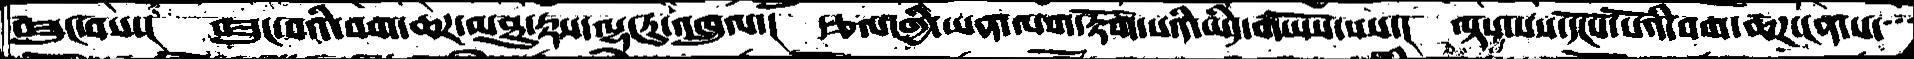བཟུང་བས་།  བཟུང་བའི་བག་ཆཌ་མཐུ་རྟས་ལྷ་རུ་འཁྲུལ་།  རྩལ་གྱི་ཡན་ལག་རྟོག་པའི་ཡིད་གཡོས་པས་།  ལྟས་པས་དངོས་པོའི་བག་ཆཌ་ངན་པ
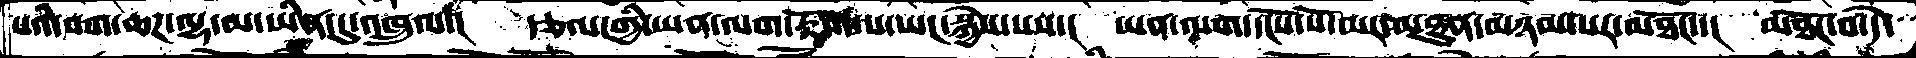པའི་བག་ཆཌ་ལྷ་མ་ཡིན་དུ་འཁྲུལ་།  རྩལ་གྱི་ཡན་ལག་རྟོག་པ་ཡང་སྐྱེས་པས་།  ཡན་ལག་དངོས་པོ་མར་མཐུན་མཉམ་པར་མཐོང་་།  མཐོང་བ་དེ་
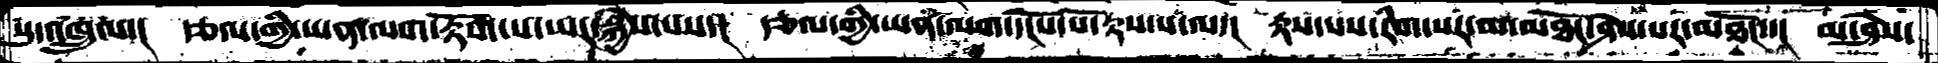སུ་འཁྲུལ་།  རྩལ་གྱི་ཡན་ལག་རྟོག་པ་ཡང་སྐྱེས་པས་།  རྩལ་གྱི་ཡན་ལག་དངོས་པོ་རྟས་པ་ལ་།  རྟས་པས་རིག་པར་མ་མཐོོང་ཤེས་པར་མཐོང་་།  མ་ཤེས་
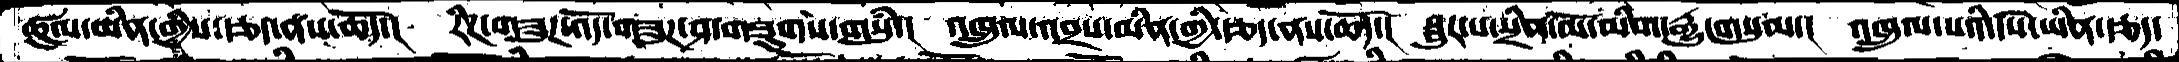ཚུལ་མིན་གྱིས་རྩད་ནས་ཆོད་། རིཌ་གཟུཌ་འོད་གཟུཌ་ཤ་གཟུགས་གསུཾ་།  འཁྲུལ་འབྲས་མིན་གྱི་རྩད་ནས་ཆོད་།  སྦུར་པ་སྲིན་མོ་མིག་རྒྱུ་གསུམ་།  འཁྲུལ་པའི་དཔེ་ཡིན་རྩད་
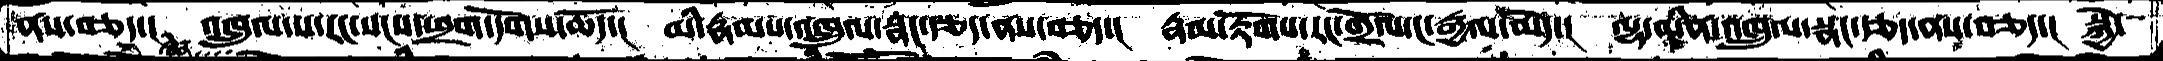ནས་བཅད་།  འཁྲུལ་པ་རང་སངས་ཕྲག་དོགས་ཆོད་།  མི་རྣམས་འཁྲུལ་སྣང་རྩད་ནས་བཅད་།  རྣམ་རྟོགས་རང་གྲོལ་ང་རྒྱལ་མེད་།  ལྷ་མིན་འཁྲུལ་སྣང་རྩད་ནས་བཅད་།  སྐྱེ་
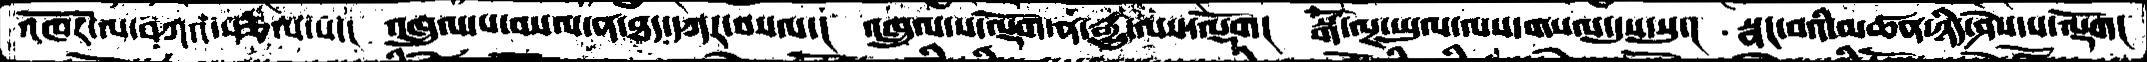འཁོར་ལ་བཀའ་སྩལ་པ་།  འཁྲུལ་པ་བསལ་ན་ཐད་དཀར་བསལ་།  འཁྲུལ་པ་ལྡོག་ན་རྒྱུ་ལས་ལྡོག།  སྒོ་ལྔ་ཡུལ་ལས་གསལ་དུས་སུ་།  སྣང་བའི་མཚན་ཉིད་ཤེས་པ་ལྡོག།
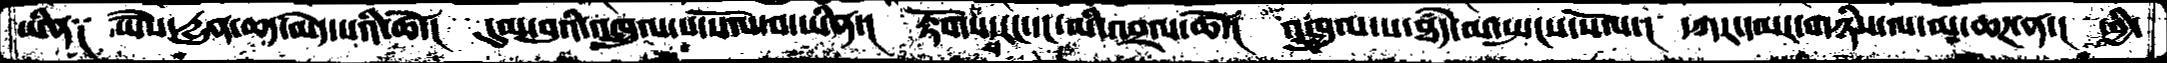ཡིན༑  ཡཻས་རྒྱུན་ཆད་མེད་པའི་ཚེ་།  དུམ་བུའི་འཁྲུལ་པ་སོལ་བ་ཡིན་།  རྟོགས་པ་རང་དང་མི་འབྲལ་ཆེ་།  འཁྲུལ་པ་ཐཾད་མ་སྤངས་སེལ་། དཀར་དམར་གཉིས་ལ་མ་ཆཌ་ན་།  ཕྱི་
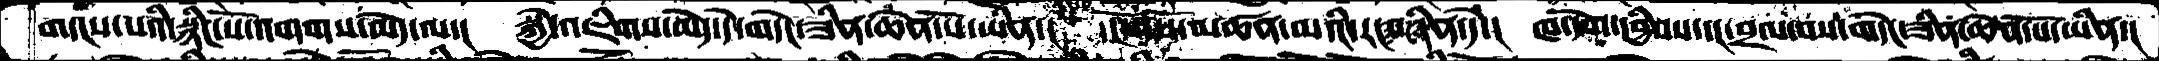གདངས་པའི་སྣིང་པོ་འགགས་མེད་ལ་།  སྐྱེ་འཇིགས་མེད་དེ་གདེང་ཟིན་ཆེན་པོ་ཡིན་།  དངོས་པོ་མཚན་མའི་རང་བཞིན་དེ་།  ཁ་དོག་དབྱིབས་དང་བྲལ་བས་གདེང་ཟིན་ཆེན་པོ་ཡིན་།
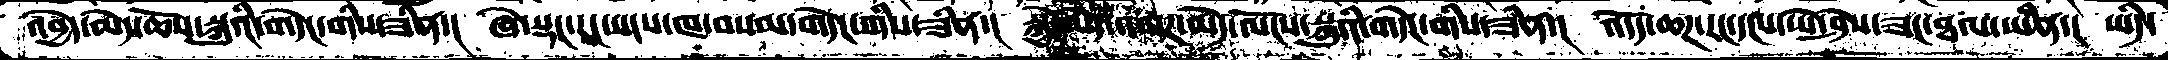འབྱེད་མེད་ཆོས་སྐུའི་གདེང་གིས་ཟིན་། ཞེ་སྡང་རང་སངས་ཁ་བསམ་གདེང་གིས་ཟིན་།  སྐྱེ་མེད་འགཌ་མེད་ལོངས་སྐུའི་གདེང་གིས་ཟིན་།  འདོད་ཆཌ་རང་དངས་ཡེ་ཤེས་ཟང་ཐལ་ཡིན་། ཡིད་
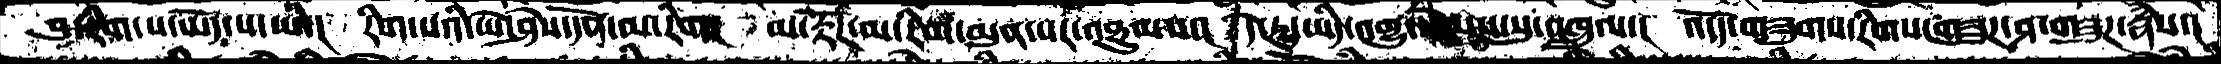བུ་རིག་པ་ཡོད་པཡི་།  རིག་པའི་ཡེ་ཤེས་དོན་མ་རིག། མ་རྟོཌ་མ་རིག་མུན་པར་འཐུམས་།  དེ་དྱུ་ཡིད་འགྱུ་སེམས་སུ་འཁྲུལ་།  འདོད་གཟུགས་རིགས་གཟུཌ་ཤ་གཟུཌ་རྣཾས་།
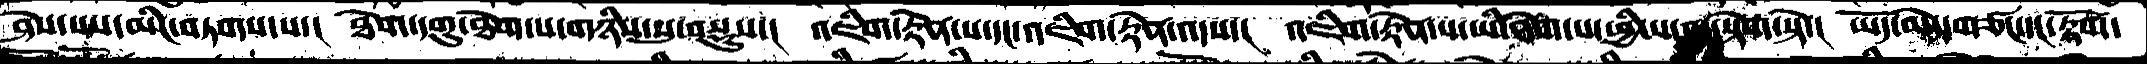ཤེས་པས་མིང་བཏགས་པ།  ཐེག་དགུ་ཐེག་པ་གཉིས་སུ་བསྡུས་།  འཇིག་རྟེན་པ་དང་འཇིག་རྟེན་འདས་།  འཇིག་རྟེན་པ་ཡི་ཐེག་པ་ཕྱི་ས་མུ་སྟེག་སྟེ་།  ཡོད་མེད་གཙང་དང་རྟོག་
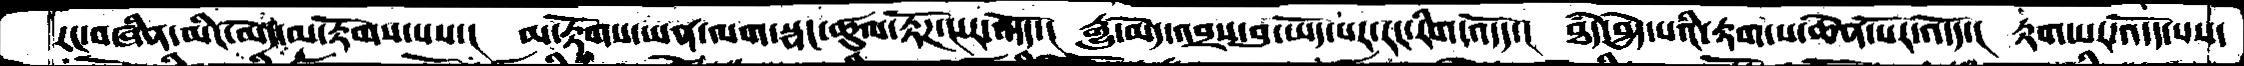རང་བཞིན་མིང་མེད་མ་རྟོགས་པས་།  མ་རྟོགས་ཡན་ལག་སྣང་ཚུལ་རྟོཌ་པར་འདོད་།  རྒྱུ་མེད་འབྲས་བུ་ཡོད་པར་རང་རིག་འདོད་།  ཐདཾ་བྱེད་པའི་རྟག་པ་ཆེན་པོར་འདོད་།  རྟག་པར་འདོད་པས་
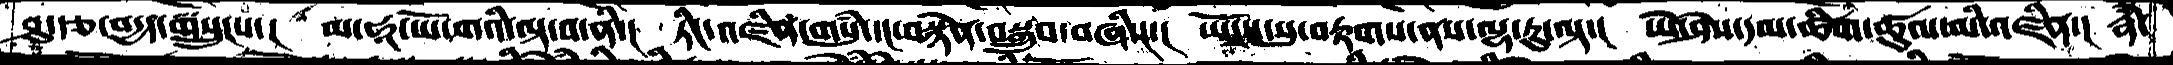ཤུ་རྩ་བདྱད་གསུངས་།  མ་ཧཱ་ཡོ་གའི་ལྟ་བ་ནི་།  ཏིང་འཛིན་གསུཾ་དང་བསྙེན་བསྒྲུབ་བཞི་་། ཡོངས་སུ་བརྟགས་ནས་ལྷ་རུ་ལྟ་།  ཡེ་ཤེས་དམ་ཚིག་ཚུལ་མི་འཛིན་། རྣཾ་
